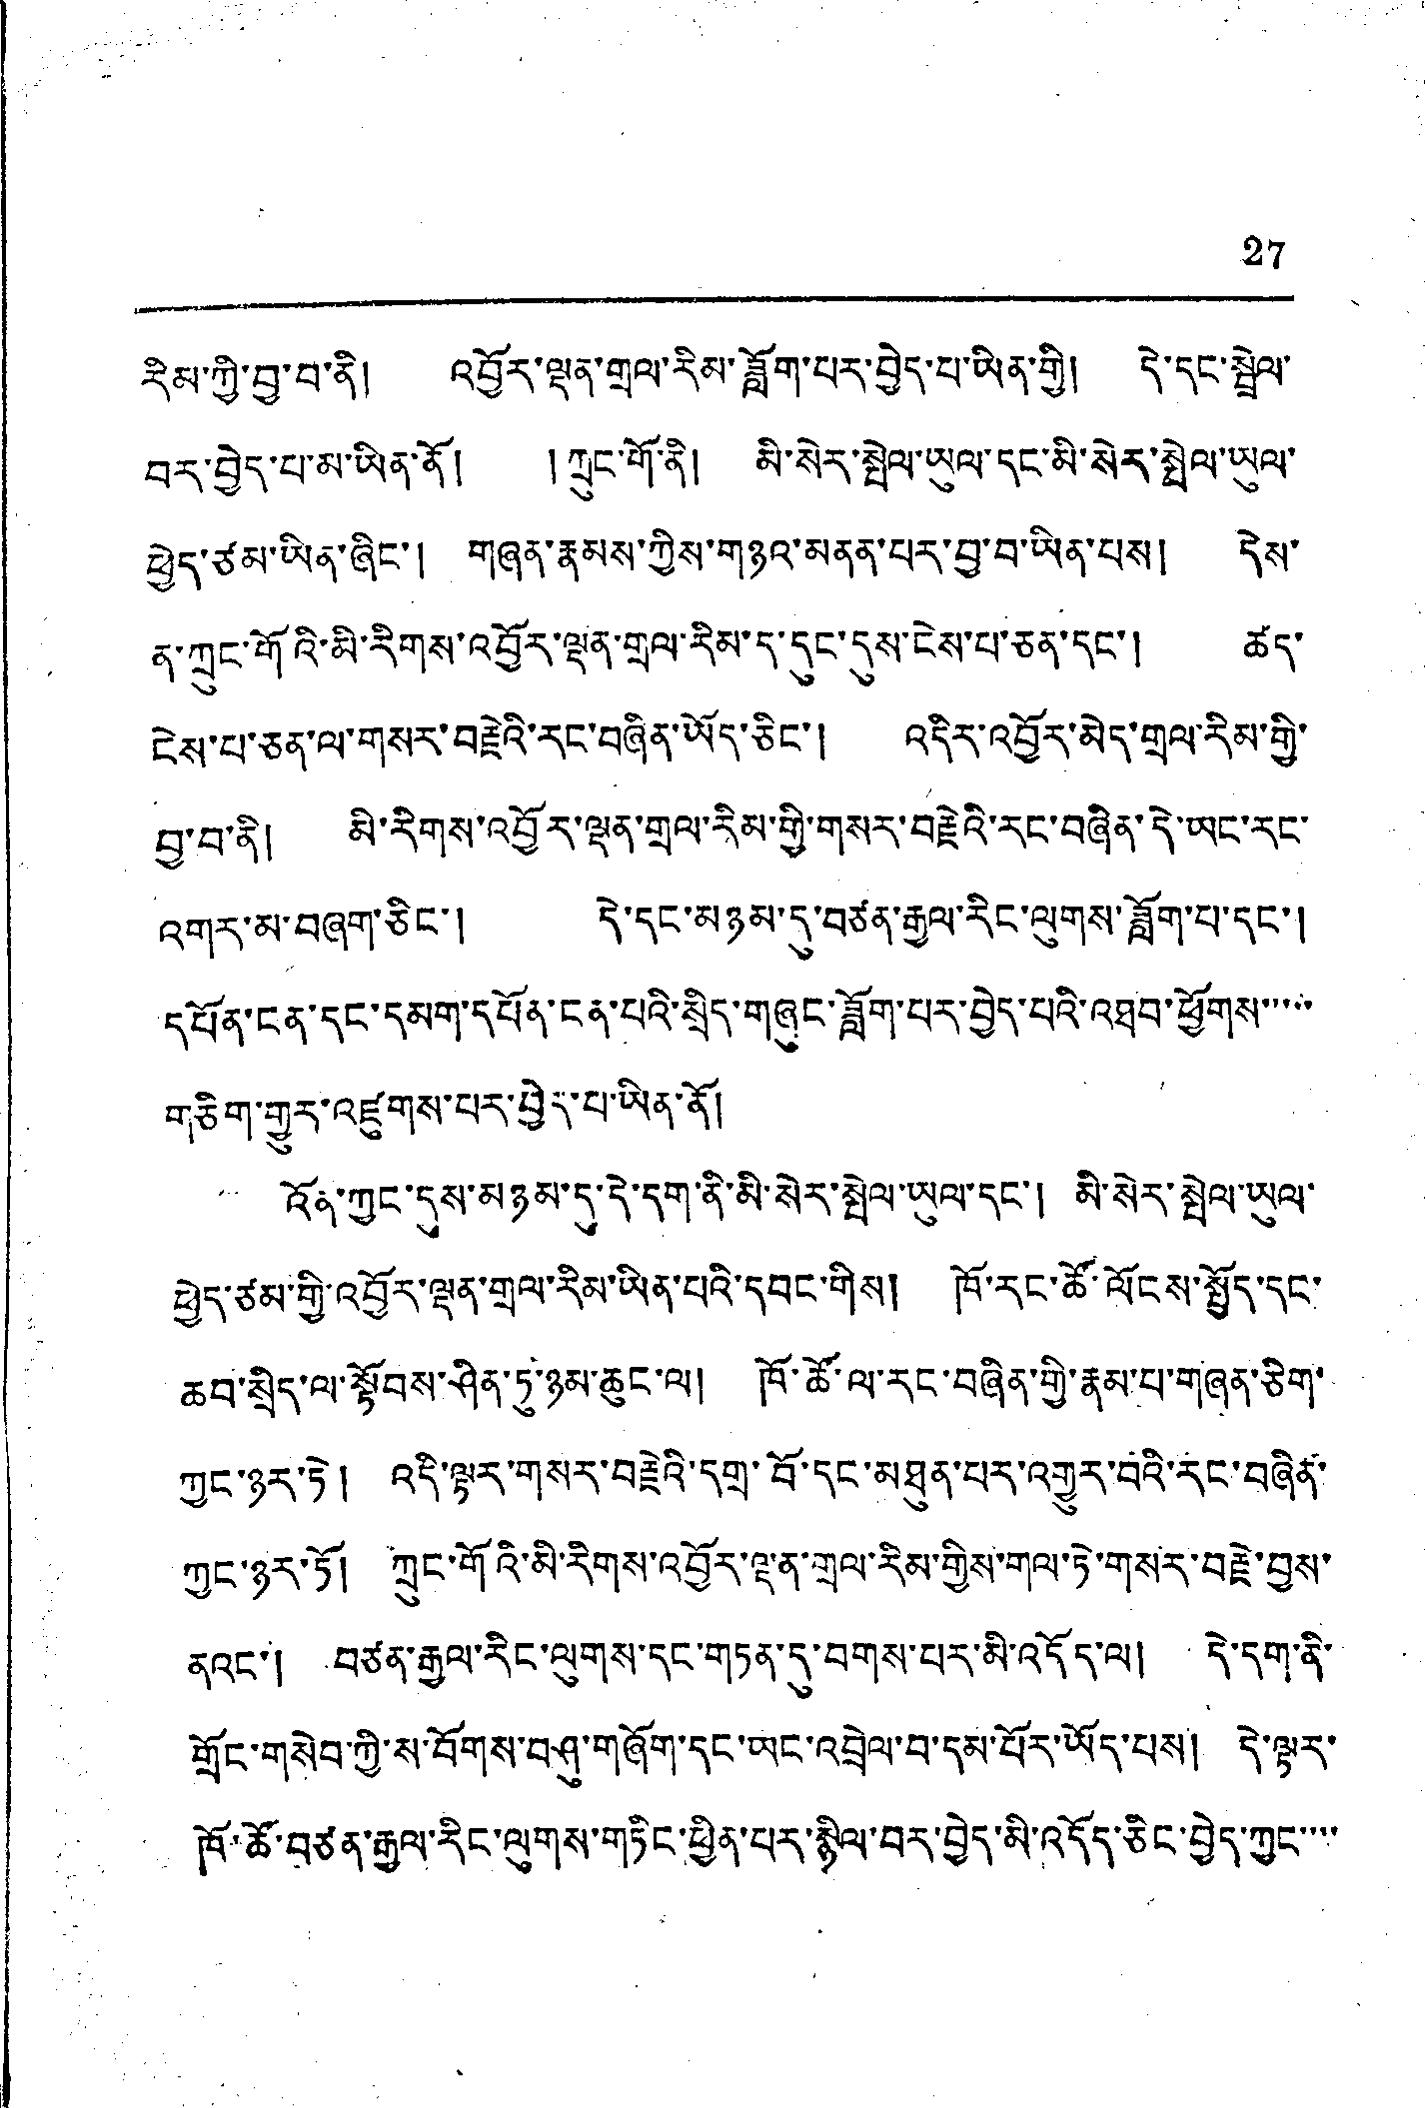27
རིམ་ཀྱི་བྱ་བ་ནི། འབྱོར་ལྡན་གྲལ་རིམ་ཟློག་པར་བྱེད་པ་ཡིན་གྱི། དེ་དང་སྦྲེལ་
བར་བྱེད་པ་མ་ཡིན་ནོ། །ཀྲུང་གོ་ནི། མི་སེར་སྤེལ་ཡུལ་དང་མི་སེར་སྤེལ་ཡུལ་་
ཕྱེད་ཙམ་ཡིན་ཞིང་། གཞན་རྣམས་ཀྱིས་གཉའ་མནན་པར་བྱ་བ་ཡིན་པས། དེས་
ན་ཀྲུང་གོའི་མི་རིགས་འབྱོར་ལྡན་གྲལ་རིམ་ད་དུང་དུས་ངེས་པ་ཅན་དང་། ཚད་
ངེས་པ་ཅན་ལ་གསར་བརྗེའི་རང་བཞིན་ཡོད་ཅིང་། འདིར་འབྱོར་མེད་གྲལ་རིམ་གྱི་
བྱ་བ་ནི། མི་རིགས་འབྱོར་ལྡན་གྲལ་རིམ་གྱི་གསར་བརྗེའི་རང་བཞིན་དེ་ཡང་རང་
འགྱུར་མ་བཞག་ཅིང་། དེ་དང་མཉམ་དུ་བཙན་རྒྱལ་རིང་ལུགས་ཟློག་པ་དང་།
དཔོན་ངན་དང་དམག་དཔོན་ངན་པའི་སྲིད་གཞུང་ཟློག་པར་བྱེད་པའི་འཐབ་ཕྱོགས་་་་་
གཅིག་གྱུར་འཛུགས་པར་བྱེད་པ་ཡིན་ནོ།
འོན་ཀྱང་དུས་མཉམ་དུ་དེ་དག་ནི་མི་སེར་སྤེལ་ཡུལ་དང་། མི་སེར་སྤེལ་ཡུལ་
ཕྱེད་ཙམ་གྱི་འབྱོར་ལྡན་གྲལ་རིམ་ཡིན་པའི་དབང་གིས། ཁོ་རང་ཚོ་ལོངས་སྤྱོད་དང་
ཆབ་སྲིད་ལ་སྟོབས་ཤིན་ཏུ་ཉམ་ཆུང་ལ། ཁོ་ཚོ་ལ་རང་བཞིན་གྱི་རྣམ་པ་གཞན་ཅིག་
ཀྱང་ཉར་ཏེ། འདི་ལྟར་གསར་བརྗེའི་དགྲ་བོ་དང་མཐུན་པར་འགྱུར་བའི་རང་བཞིན་
ཀྱང་ཉར་ཏོ། ཀྲུང་གོའི་མི་རིགས་འབྱོར་ལྡན་གྲལ་རིམ་གྱིས་གལ་ཏེ་གསར་བརྗེ་བྱས་
ནའང་། བཙན་རྒྱལ་རིང་ལུགས་དང་གཏན་དུ་བགས་པར་མི་འདོད་ལ། དེ་དག་ནི་
གྲོང་གསེབ་ཀྱི་ས་བོགས་བཤུ་གཞོག་དང་ཡང་འབྲེལ་བ་དམ་པོར་ཡོད་པས། དེ་ལྟར་
ཁོ་ཚོ་བཙན་རྒྱལ་རིང་ལུགས་གཏིང་ཕྱིན་པར་སྙིལ་བར་བྱེད་མི་འདོད་ཅིང་བྱེད་ཀྱང་་་་
